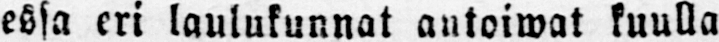essa eri laulukunnat antoiwat kuulla
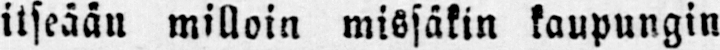itseään milloin missäkin kaupungin
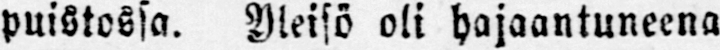puistossa. Yleisö oli hajaantuneena
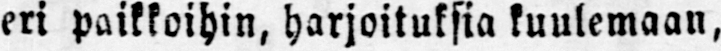eri paikkoihin, harjoituksia kuulemaan,
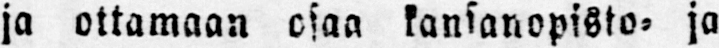ja ottamaan osaa kansanopisto- ja
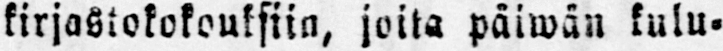kirjastokokouksiin, joita päiwän kulu-
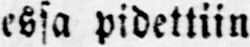essa pidettiin
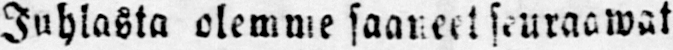Juhlasta olemme saaneet seuraawat
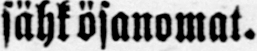sähkösanomat.
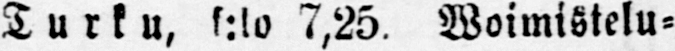Turku, t:lo 7,25. Woimistelu-
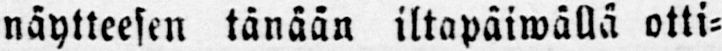näytteesen tänään iltapäiwällä otti-
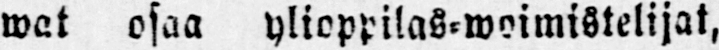wat osaa ylioppilas-woimistelijat,
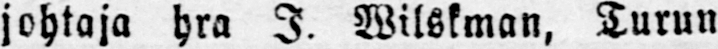johtaja hra I. Wilskman, Turun
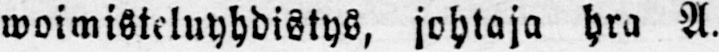woimisteluyhdistys, johtaja hra A.
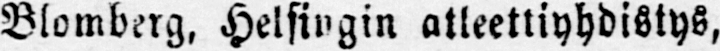Blomberg, Helsingin atleettiyhdistys,
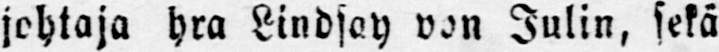johtaja hra Lindsay von Julin, sekä
